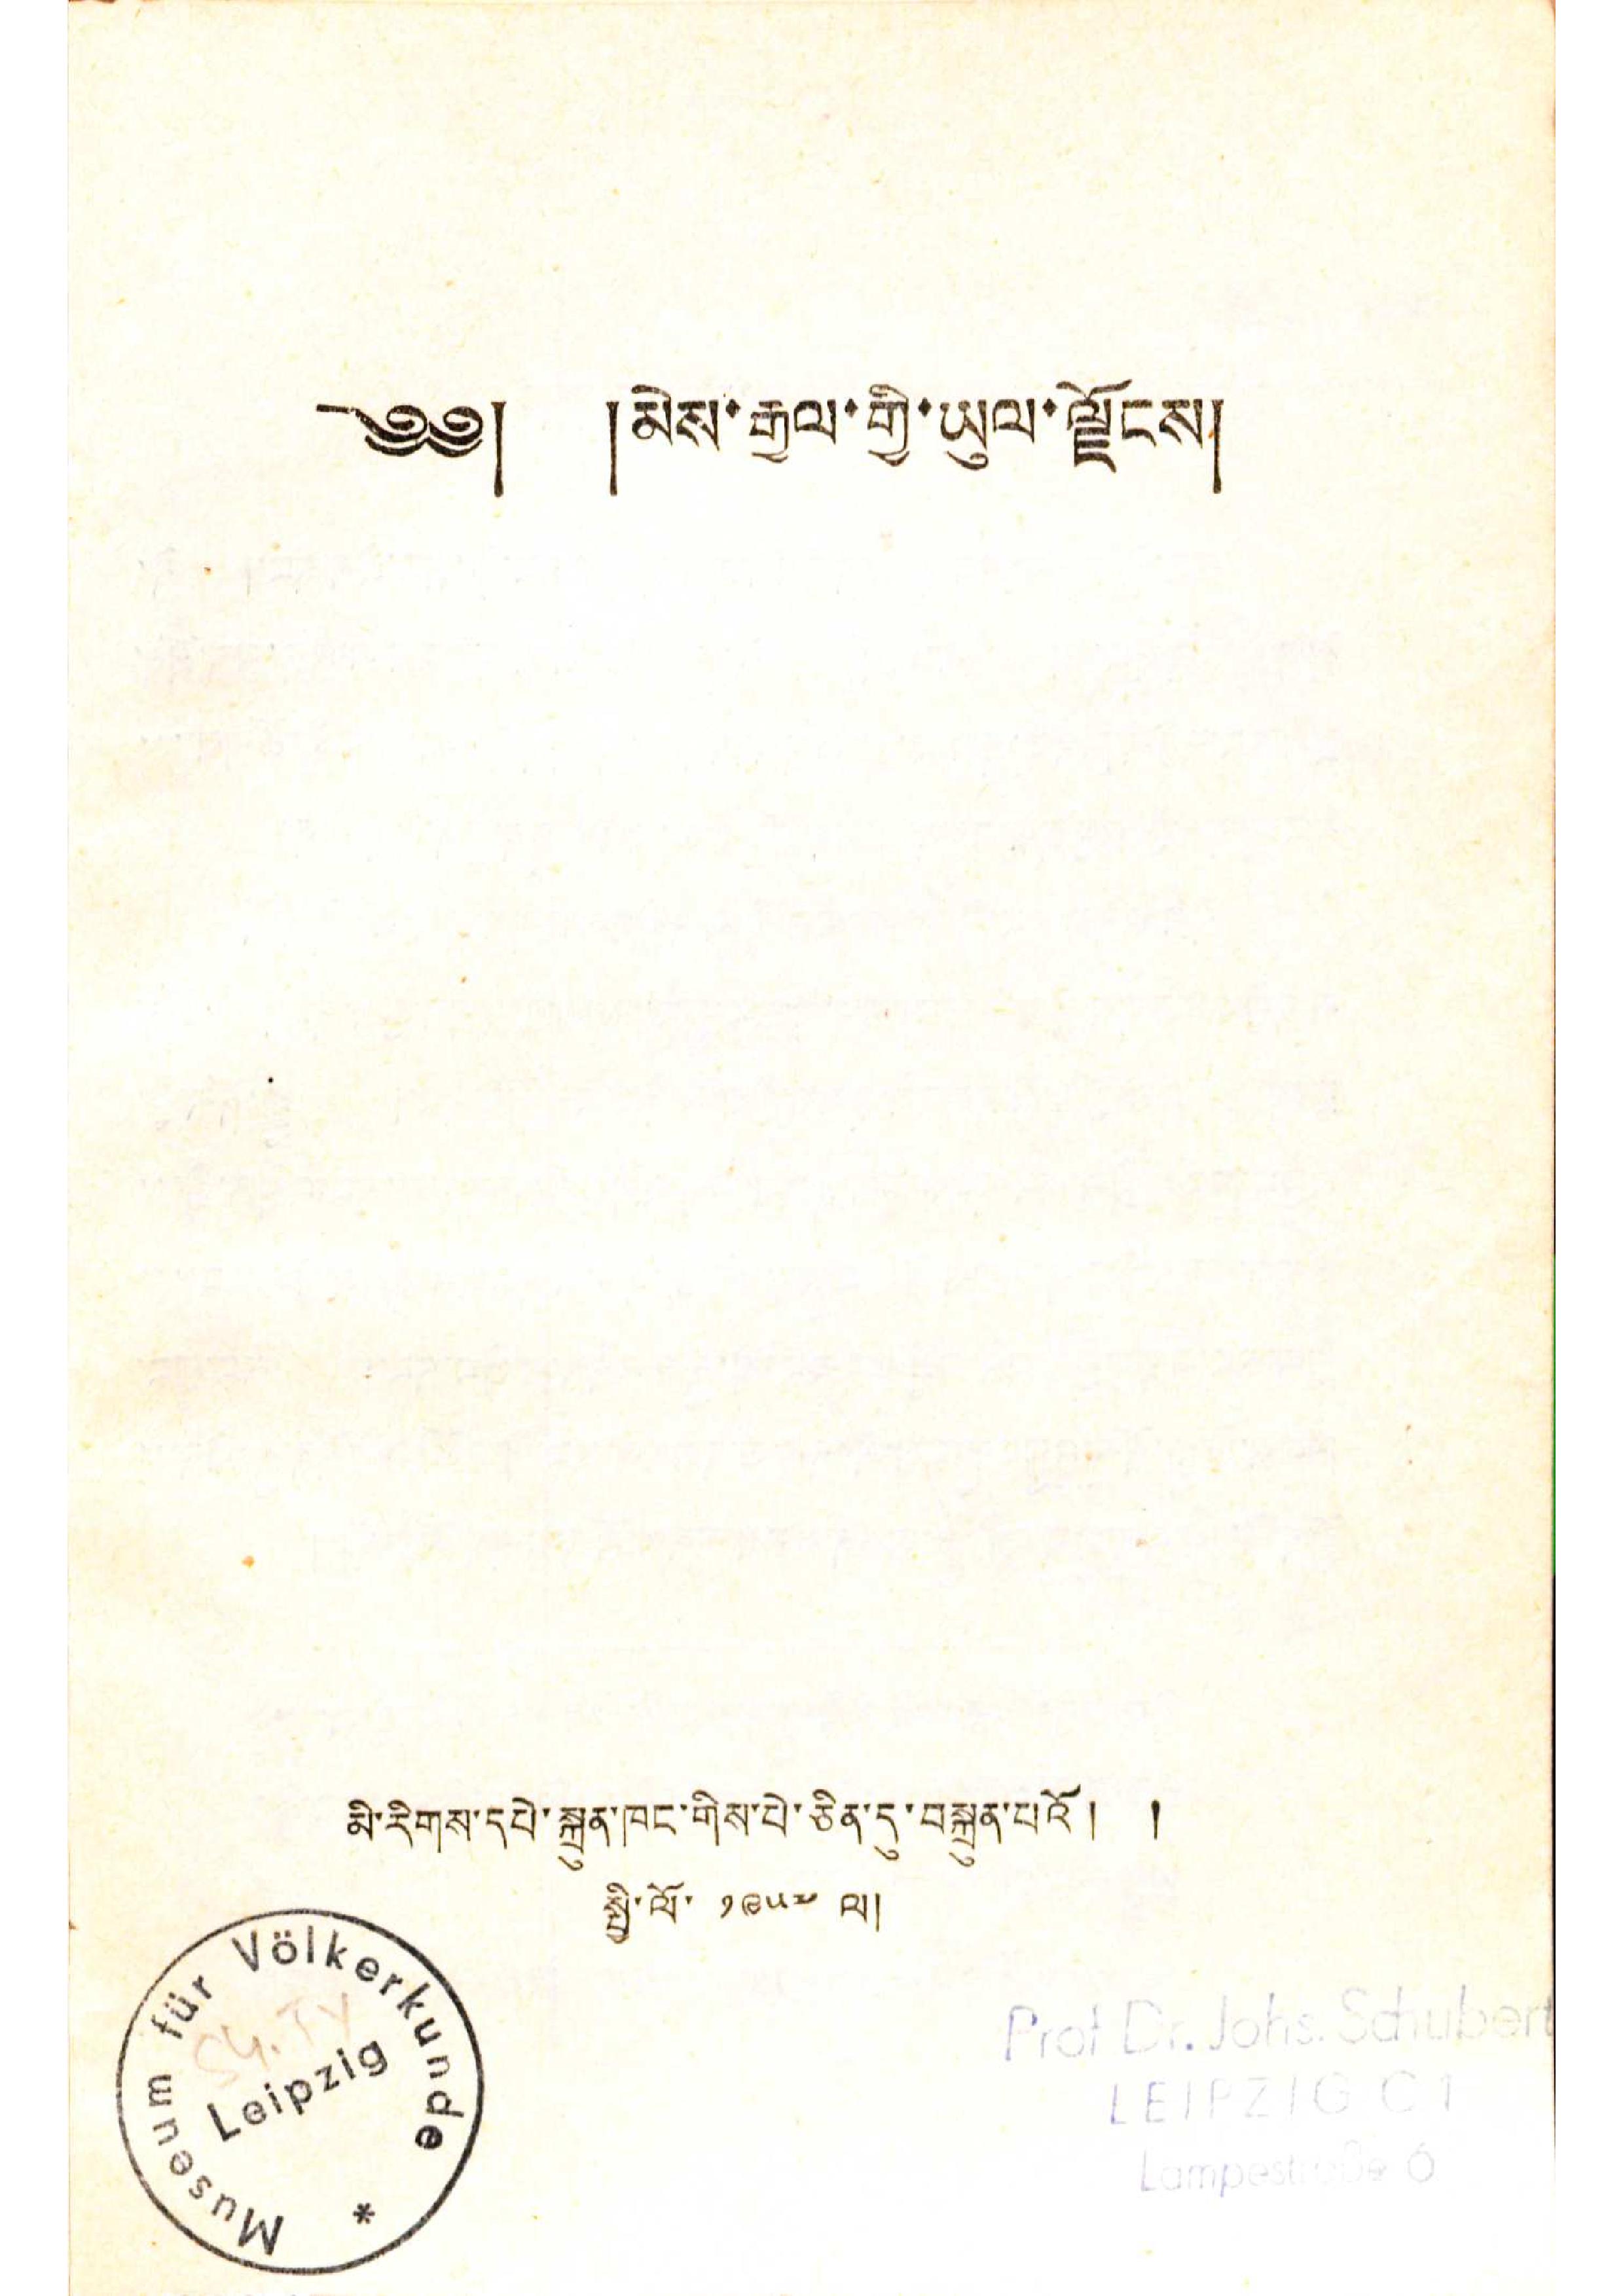༄༅། །མེས་རྒྱལ་གྱི་ཡུལ་ལྗོངས།
མི་རིགས་དཔེ་སྐྲུན་ཁང་གིས་པེ་ཅིན་དུ་བསྐྲུན་པའོ། །
སྤྱི་ལོ་ ༡༩༥༧ ལ།
